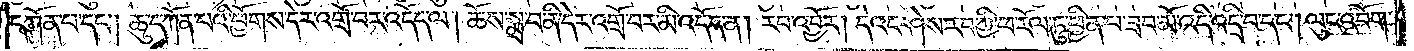དཀོན་པ་དང༌། ཆུ་དཀོན་པའི་ཕྱོགས་དེར་འགྲོ་བར་འདོད་ལ། ཆོས་སྨྲ་བ་ནི་དེར་འགྲོ་བར་མི་འདོད་ན། རབ་འབྱོར། དེའང་ཤེས་རབ་ཀྱི་ཕ་རོལ་ཏུ་ཕྱིན་པ་ཟབ་མོ་འདི་འདྲི་བ་དང༌། ལུང་འབོག་
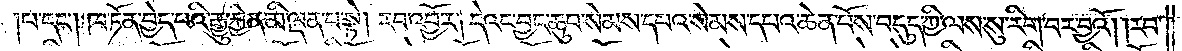པ་དང༌། ཁ་ཏོན་བྱེད་པའི་རྒྱུ་རྐྱེན་མི་ལྡན་པ་སྟེ། རབ་འབྱོར། དེའང་བྱང་ཆུབ་སེམས་དཔའ་སེམས་དཔའ་ཆེན་པོས་བདུད་ཀྱི་ལས་སུ་རིག་པར་བྱའོ། །རབ་
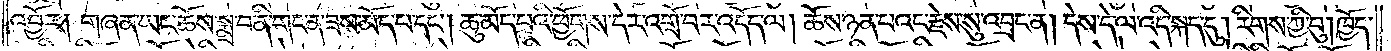འབྱོར། གཞན་ཡང་ཆོས་སྨྲ་བ་ནི་གང་ན་ཟས་མེད་པ་དང༌། ཆུ་མེད་པའི་ཕྱོགས་དེར་འགྲོ་བར་འདོད་ལ། ཆོས་ཉན་པའང་རྗེས་སུ་འབྲང་ན། དེས་དེ་ལ་འདི་སྐད་དུ། རིགས་ཀྱི་བུ། ཁྱོད་
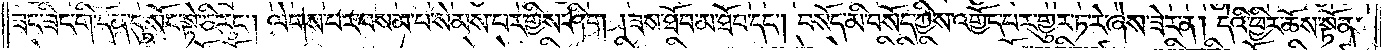ཟང་ཟིང་གི་དོན་དུ་སོང་སྟེ་ཅི་རུང༌། ལེགས་པར་བསམ་པ་སེམས་པར་གྱིས་ཤིག །ཟས་ཐོབ་མ་ཐོབ་དང༌། བསོད་མི་བསོད་ཀྱིས་འགྱོད་པར་གྱུར་ཏེ་རེ་ཞེས་ཟེར་ན། དེའི་ཕྱིར་ཆོས་སྟོན་
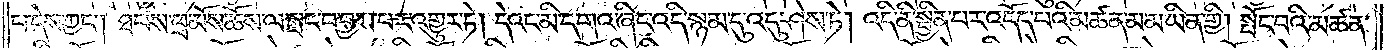པ་དེས་ཀྱང༌། ཐབས་ཕྲ་མོས་ཆོས་ལ་སྤང་བ་བྱས་པར་འགྱུར་ཏེ། དེའང་མི་དགའ་ཞིང་འདི་སྙམ་དུ་འདུ་ཤེས་ཏེ། འདི་ནི་སྦྱིན་པར་འདོད་པའི་མཚན་མ་མ་ཡིན་གྱི། སྤོང་བའི་མཚན་
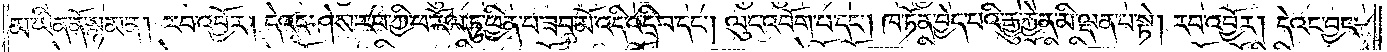མ་ཡིན་ནོ་སྙམ་ན། རབ་འབྱོར། དེའང་ཤེས་རབ་ཀྱི་ཕ་རོལ་ཏུ་ཕྱིན་པ་ཟབ་མོ་འདི་འདྲི་བ་དང༌། ལུང་འབོག་པ་དང༌། ཁ་ཏོན་བྱེད་པའི་རྒྱུ་རྐྱེན་མི་ལྡན་པ་སྟེ། རབ་འབྱོར། དེའང་བྱང་
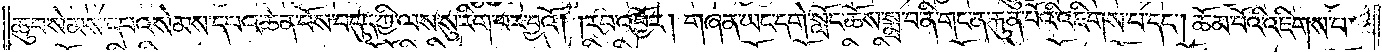ཆུབ་སེམས་དཔའ་སེམས་དཔའ་ཆེན་པོས་བདུད་ཀྱི་ལས་སུ་རིག་པར་བྱའོ། །རབ་འབྱོར། གཞན་ཡང་དགེ་སློང་ཆོས་སྨྲ་བ་ནི་གང་ན་རྐུན་པོའི་འཇིགས་པ་དང༌། ཆོམ་པོའི་འཇིགས་པ་
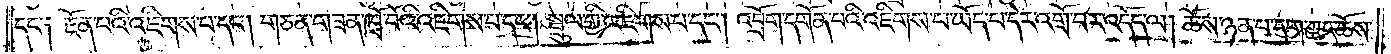དང་༑ རྔོན་པའི་འཇིགས་པ་དང༌། གཅན་གཟན་ཁྲོ་བོའི་འཇིགས་པ་དང༌། སྤྲུལ་གྱི་འཇིགས་པ་དང༌། འབྲོག་དགོན་པའི་འཇིགས་པ་ཡོད་པ་དེར་འགྲོ་བར་འདོད་ལ། ཆོས་ཉན་པ་དག་ཀྱང་ཆོས་
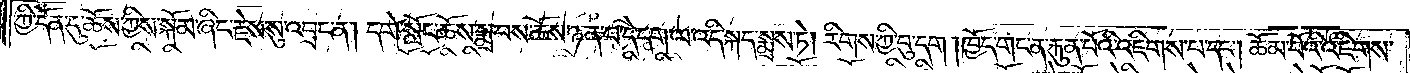ཀྱི་དོན་དུ་ཆོས་ཀྱིས་སྐོམ་ཞིང་རྗེས་སུ་འབྲང་ན། དགེ་སློང་ཆོས་སྨྲ་བས་ཆོས་ཉན་པ་དེ་དག་ལ་འདི་སྐད་སྨྲས་ཏེ། རིགས་ཀྱི་བུ་དག །ཁྱོད་གང་ན་རྐུན་པོའི་འཇིགས་པ་དང༌། ཆོམ་པོའི་འཇིགས་
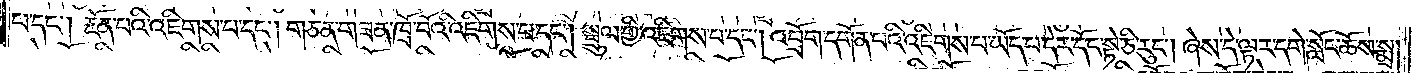པ་དང༌། རྔོན་པའི་འཇིགས་པ་དང༌། གཅན་གཟན་ཁྲོ་བོའི་འཇིགས་པ་དང༌། སྤྲུལ་གྱི་འཇིགས་པ་དང༌། འབྲོག་དགོན་པའི་འཇིགས་པ་ཡོད་པ་དེར་དོང་སྟེ་ཅི་རུང༌། ཞེས་དེ་ལྟར་དགེ་སློང་ཆོས་སྨྲ་
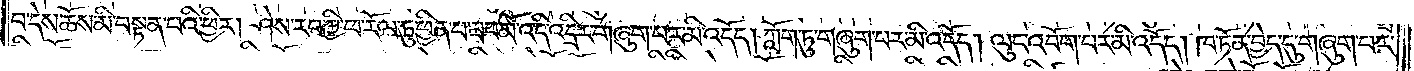བ་དེས་ཆོས་མི་བསྟན་པའི་ཕྱིར། ཤེས་རབ་ཀྱི་ཕ་རོལ་ཏུ་ཕྱིན་པ་ཟབ་མོ་འདི་འདྲིར་གཞུག་པར་མི་འདོད། ཀློག་ཏུ་གཞུག་པར་མི་འདོད། ལུང་འབོག་པར་མི་འདོད། ཁ་ཏོན་བྱེད་དུ་གཞུག་པར་
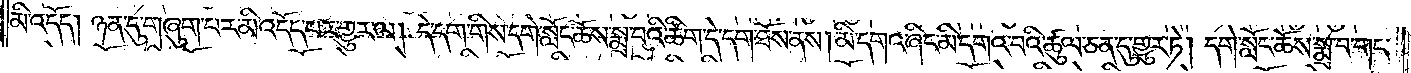མི་འདོད། ཉན་དུ་གཞུག་པར་མི་འདོད་པར་གྱུར་ལ། དེ་དག་གིས་དགེ་སློང་ཆོས་སྨྲ་བའི་ཚིག་དེ་དག་ཐོས་ནས། མི་དགའ་ཞིང་མི་དགའ་བའི་ཚུལ་ཅན་དུ་གྱུར་ཏེ། དགེ་སློང་ཆོས་སྨྲ་བ་གང་
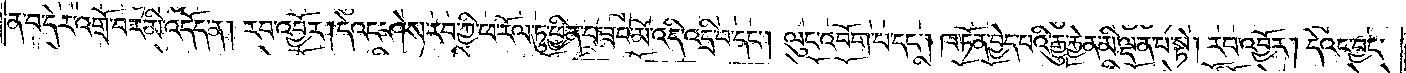ན་བ་དེར་འགྲོ་བར་མི་འདོད་ན། རབ་འབྱོར། དེའང་ཤེས་རབ་ཀྱི་ཕ་རོལ་ཏུ་ཕྱིན་པ་ཟབ་མོ་འདི་འདྲི་བ་དང༌། ལུང་འབོག་པ་དང༌། ཁ་ཏོན་བྱེད་པའི་རྒྱུ་རྐྱེན་མི་ལྡན་པ་སྟེ། རབ་འབྱོར། དེའང་བྱང་
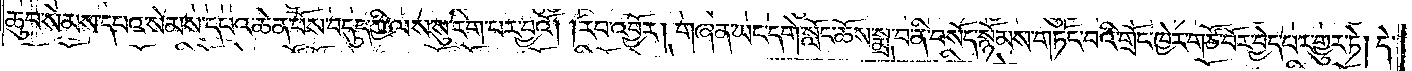ཆུབ་སེམས་དཔའ་སེམས་དཔའ་ཆེན་པོས་བདུད་ཀྱི་ལས་སུ་རིག་པར་བྱའོ། །རབ་འབྱོར། གཞན་ཡང་དགེ་སློང་ཆོས་སྨྲ་བ་ནི་བསོད་སྙོམས་གཏོང་བའི་གྲོང་ཁྱེར་གཙོ་བོར་བྱེད་པར་གྱུར་ཏེ། དེ་
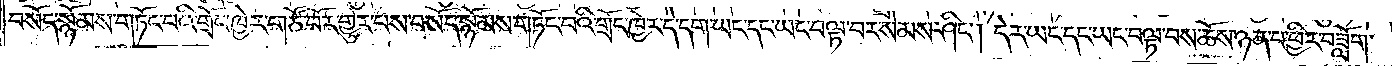བསོད་སྙོམས་གཏོང་བའི་གྲོང་ཁྱེར་གཙོ་བོར་གྱུར་བས་བསོད་སྙོམས་གཏོང་བའི་གྲོང་ཁྱེར་དེ་དག་ཡང་དང་ཡང་བལྟ་བར་སེམས་ཤིང༌། དེར་ཡང་དང་ཡང་བལྟ་བས་ཆོས་ཉན་པ་ཕྱིར་བཟློག་
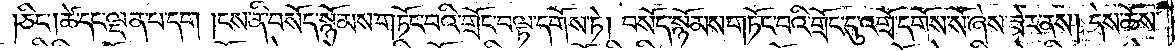ཅིང༌། ཚེ་དང་ལྡན་པ་དག །ངས་ནི་བསོད་སྙོམས་གཏོང་བའི་གྲོང་བལྟ་དགོས་ཏེ། བསོད་སྙོམས་གཏོང་བའི་གྲོང་དུ་འགྲོ་དགོས་སོ་ཞེས་ཟེར་ནས། དེས་ཆོས་
